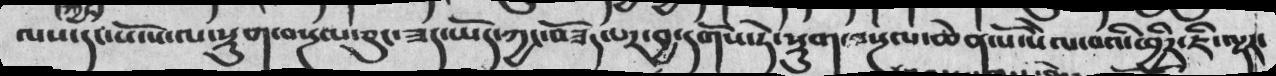ལས་དང་པོ་ལ་སྡུག་བསྔལ་ཅུང་ཟད་ཡོད་ཀྱང་བཟོད་པར་བྱ་དགོས་ཏེ་སྡུག་བསྔལ་ཆེན་པོ་སེལ་བའི་ཕྱིར་ཇི་ལྟར་
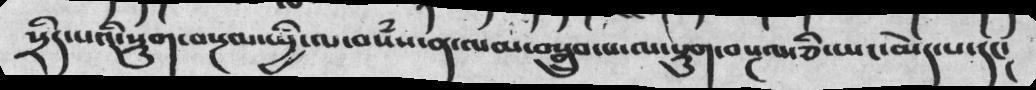སྲིད་པའི་སྡུག་བསྔལ་སྤྱི་ལ་བསཾས་ན་ལམ་བསྒྲུབ་པ་ལ་སྡུག་བསྔག་ཅི་ཡང་མེད་པ་དང།
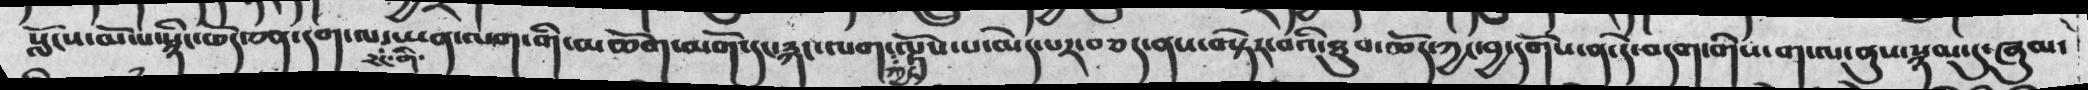སློངས་མོ་པ་སྙིང་ཕོད་ཅན་དག་ལ་རང་གི་ཡན་ལག་གི་མཆོག་མགོ་དང་རྐང་ལག་ཀྱང་ལྷོས་པ་མེད་པར་བཅད་ནས་བསྟེར་བའི་ཐུབ་ཆོད་ཀྱང་བྱ་དགོས་ན་དེ་བདག་གིས་ག་ལ་ནུས་སྙམ་དུ་ཞུམ
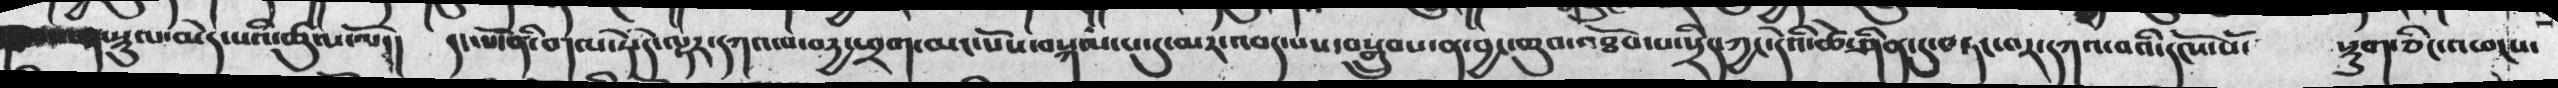སྡུལ་མེད་པའི་ཚུལ་ལོ།།   དང་པོ་ནི་གལ་ཏེ་དེ་ལྟར་དཀའ་བ་བདྱ་ཕྲག་མང་པོས་བསྐལ་པ་དུ་མར་འབད་པས་བསྒྲུབས་ན་བྱང་ཆུབ་འཐོབ་པ་སྲིད་ཀྱང་དེའི་ཚེ་ཤིན་དུ་བཏང་བར་དཀའ་བའི་དངོས་པོ་  སྡུག་ཅིང་འཕངས་
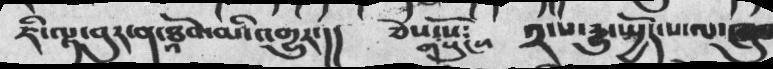ཇི་ལྟ་བུར་ན་འཐོབ་མི་འགྱུར་།།   ཅེས་སོ་གསུངས་    ༢་པ་དྱུ་ཡྱོད་པ་ལ་ཞུག
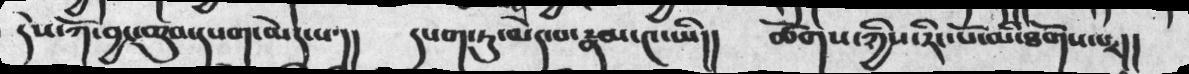དེས་ཀོ་བྱང་ཆུབ་དཔག་མེད་པ་།།   དཔག་ཏུ་མེད་པ་རྣམ་༤་ཡི།།    ཚོགས་ཀྱིས་རིང་པོ་མི་ཐོགས་པར།།
